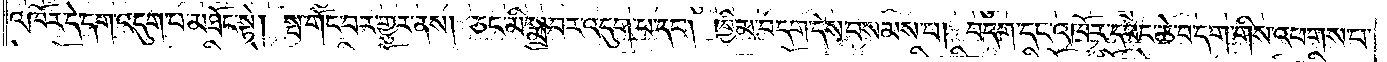འཁོར་དེ་དག་འདུག་པ་མཐོང་སྟེ། སྦ་གོང་བར་གྱུར་ནས། ཅང་མི་སྨྲ་བར་འདུག་པ་དང༌། ཁྱིམ་བདག་དེས་བསམས་པ། བདག་དང་འཁོར་དབང་ཆེ་བ་དག་གིས་འཕགས་པ་
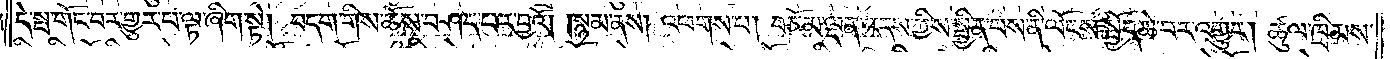དེ་སྦ་གོང་བར་གྱུར་པ་ལྟ་ཞིག་སྟེ། བདག་གིས་ཆོས་བཤད་པར་བྱའོ། །སྙམ་ནས། འཕགས་པ། བཅོམ་ལྡན་འདས་ཀྱིས་སྦྱིན་པས་ནི་ལོངས་སྤྱོད་ཆེ་བར་འགྱུར། ཚུལ་ཁྲིམས་
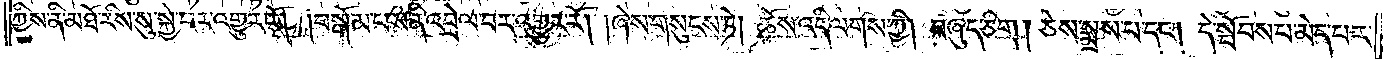ཀྱིས་ནི་མཐོ་རིས་སུ་སྐྱེ་བར་འགྱུར་རོ། །བསྒོམ་པས་ནི་འབྲེལ་བར་འགྱུར་རོ། །ཞེས་གསུངས་ཏེ། ཆོས་འདི་ལགས་ཀྱི། བཞུད་ཅིག །ཅེས་སྨྲས་པ་དང༌། དེ་སྤོབས་པ་མེད་པར་
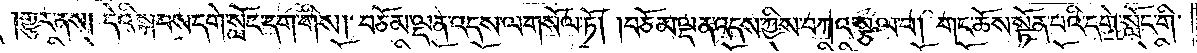གྱུར་ནས། དེའི་སྐབས་དགེ་སློང་དག་གིས། བཅོམ་ལྡན་འདས་ལ་གསོལ་ཏོ། །བཅོམ་ལྡན་འདས་ཀྱིས་བཀའ་སྩལ་པ། གང་ཆོས་སྟོན་པའི་དགེ་སློང་གི་
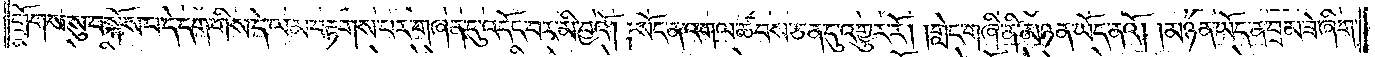གྲོགས་སུ་བསྐོས་པ་དེ་དག་གིས་དེ་ལ་མ་བརྟགས་པར་གཞན་དུ་འདོད་བར་མི་བྱའོ། །སོང་ན་འགལ་ཚབས་ཅན་དུ་འགྱུར་རོ། །གླེང་གཞི་ནི་མཉན་ཡོད་ནའོ། །མཉན་ཡོད་ན་བྲམ་ཟེ་ཞིག་
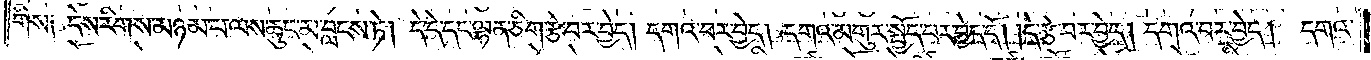གིས། དེས་རིགས་མཉམ་པ་ལས་ཆུང་མ་བླངས་ཏེ། དེ་དེ་དང་ལྷན་ཅིག་རྩེ་བར་བྱེད། དགའ་བར་བྱེད། དགའ་མགུར་སྤྱོད་པར་བྱེད་དོ། །དེ་རྩེ་བར་བྱེད། དགའ་བར་བྱེད། དགའ་
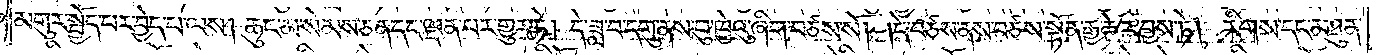མགུར་སྤྱོད་པར་བྱེད་པ་ལས། ཆུང་མ་སེམས་ཅན་དང་ལྡན་པར་གྱུར་ཏེ། དེ་ཟླ་བ་དགུ་ནས་བུ་ཁྱེའུ་ཞིག་བཙས་སོ། །དེ་བཙས་ནས་བཙས་སྟོན་རྒྱ་ཆེར་བྱས་ཏེ། རིགས་དང་མཐུན་
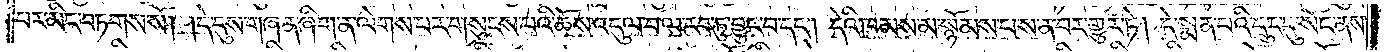པར་མིང་བཏགས་སོ། །དེ་དུས་གཞན་ཞིག་ན་ལེགས་པར་གསུངས་པའི་ཆོས་འདུལ་བ་ལ་རབ་ཏུ་བྱུང་བ་དང༌། དེའི་ཁམས་མ་སྙོམས་པས་ན་བར་གྱུར་ཏེ། དེ་སྨན་པའི་དྲུང་དུ་སོང་ནས་
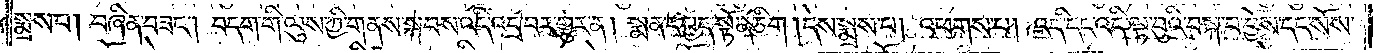སྨྲས་པ། བཞིན་བཟང༌། བདག་གི་ལུས་ཀྱི་གནས་སྐབས་འདི་འདྲ་བར་གྱུར་ན། སྨན་དཔྱད་སྟོན་ཅིག །དེས་སྨྲས་པ། འཕགས་པ། འདི་དང་འདི་ལྟ་བུའི་བསྐ་བ་བྱོས་དང་སོས་
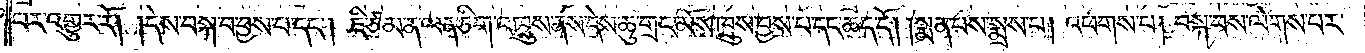པར་འགྱུར་རོ། །དེས་བསྐ་བ་བྱས་པ་དང༌། ཇི་ཙམ་ན་ལན་གཅིག་འཁྲུས་ནས་དེས་ཆུ་གྲང་མོས་ཁྲུས་བྱས་པ་དང་ཆད་དོ། །སྨན་པས་སྨྲས་པ། འཕགས་པ། བསྐ་བས་ལེགས་པར་
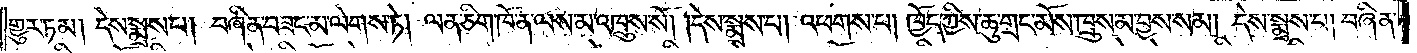གྱུར་ཏམ། དེས་སྨྲས་པ། བཞིན་བཟང་མ་ལེགས་ཏེ། ལན་ཅིག་ཁོ་ན་ལས་མ་འཁྲུས་སོ། །དེས་སྨྲས་པ། འཕགས་པ། ཁྱོད་ཀྱིས་ཆུ་གྲང་མོས་ཁྲུས་མ་བྱས་སམ། དེས་སྨྲས་པ། བཞིན་
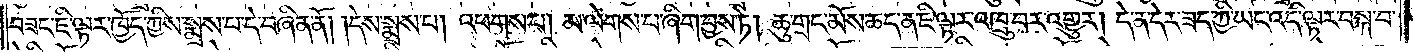བཟང་ཇི་ལྟར་ཁྱོད་ཀྱིས་སྨྲས་པ་དེ་བཞིན་ནོ། །དེས་སྨྲས་པ། འཕགས་པ། མ་ལེགས་པ་ཞིག་བྱས་ཏེ། ཆུ་གྲང་མོས་ཆད་ན་ཇི་ལྟར་འཁྲུ་བར་འགྱུར། དེ་ན་དེར་ཟད་ཀྱི་ཡང་འདི་ལྟར་བསྐ་བ་
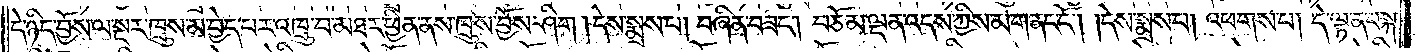དེ་ཉིད་བྱོས་ལ་སྔར་ཁྲུས་མ་བྱེད་པར་འཁྲུ་བ་མཐར་ཕྱིན་ནས་ཁྲུས་བྱོས་ཤིག །དེས་སྨྲས་པ། བཞིན་བཟང༌། བཅོམ་ལྡན་འདས་ཀྱིས་མ་གནང་ངོ༌། །དེས་སྨྲས་པ། འཕགས་པ། དེ་ལྟ་ན་བསྐ་
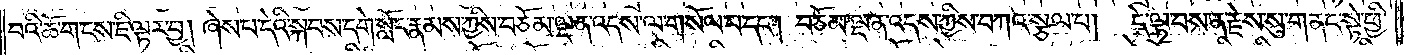བའི་ཆོ་ག་ངས་ཇི་ལྟར་བྱ། ཞེས་པ་དེའི་སྐབས་དགེ་སློང་རྣམས་ཀྱིས་བཅོམ་ལྡན་འདས་ལ་གསོལ་པ་དང༌། བཅོམ་ལྡན་འདས་ཀྱིས་བཀའ་སྩལ་པ། དེ་ལྟ་བས་ན་རྗེས་སུ་གནང་སྟེ་ཕྱི་
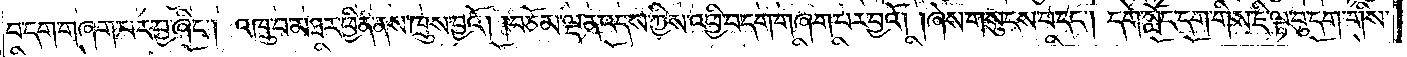བ་དག་གཞག་པར་བྱ་ཞིང༌། འཁྲུ་བ་མཐར་ཕྱིན་ནས་ཁྲུས་བྱའོ། །བཅོམ་ལྡན་འདས་ཀྱིས་འཕྱི་བ་དག་གཞག་པར་བྱའོ། །ཞེས་གསུངས་པ་དང༌། དགེ་སློང་དག་གིས་ཇི་ལྟ་བུ་དག་གིས་
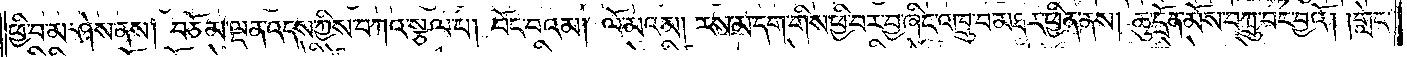ཕྱི་བ་མ་ཤེས་ནས། བཅོམ་ལྡན་འདས་ཀྱིས་བཀའ་སྩལ་པ། བོང་བའམ། ལོ་མའམ། རས་མ་དག་གིས་ཕྱི་བར་བྱ་ཞིང་འཁྲུ་བ་མཐར་ཕྱིན་ནས། ཆུ་དྲོན་མོས་བཀྲུ་བར་བྱའོ། །གླེང་
